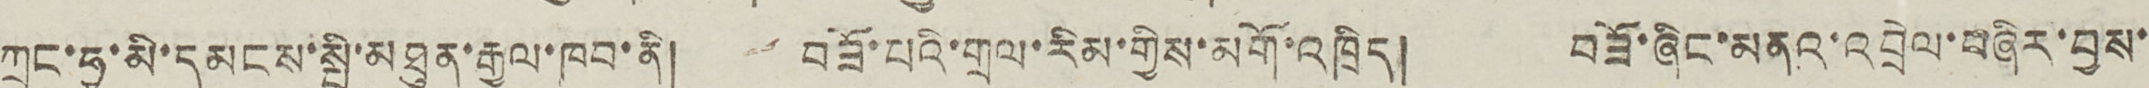ཀྲུང་ཧྭ་མི་དམངས་སྤྱི་མཐུན་རྒྱལ་ཁབ་ནི། བཟོ་པའི་གྲལ་རིམ་གྱིས་མགོ་འཁྲིད། བཟོ་ཞིང་མནའ་འབྲེལ་བཞིར་བྱས་
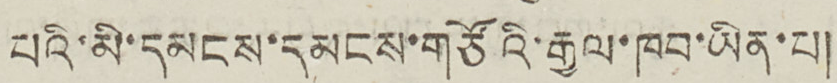པའི་མི་དམངས་དམངས་གཙོའི་རྒྱལ་ཁབ་ཡིན་པ།
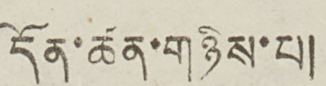དོན་ཚན་གཉིས་པ།
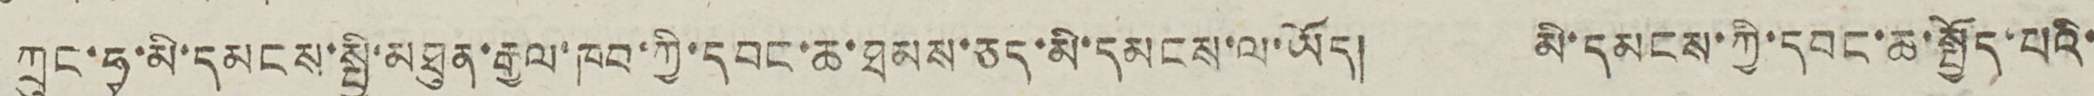ཀྲུང་ཧྭ་མི་དམངས་སྤྱི་མཐུན་རྒྱལ་ཁབ་ཀྱི་དབང་ཆ་ཐམས་ཅད་མི་དམངས་ལ་ཡོད། མི་དམངས་ཀྱི་དབང་ཆ་སྤྱོད་པའི་
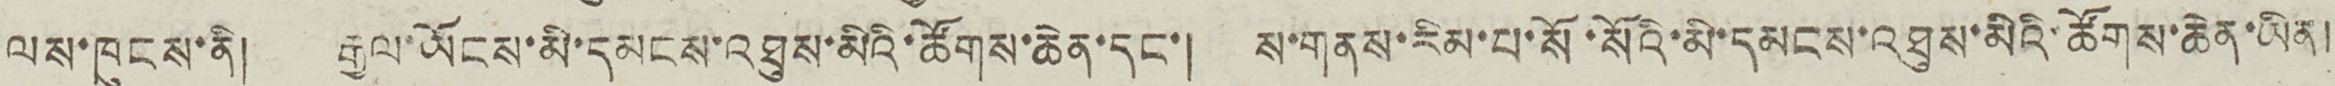ལས་ཁུངས་ནི། རྒྱལ་ཡོངས་མི་དམངས་འཐུས་མིའི་ཚོགས་ཆེན་དང་། ས་གནས་རིམ་པ་སོ་སོའི་མི་དམངས་འཐུས་མིའི་ཚོགས་ཆེན་ཡིན།
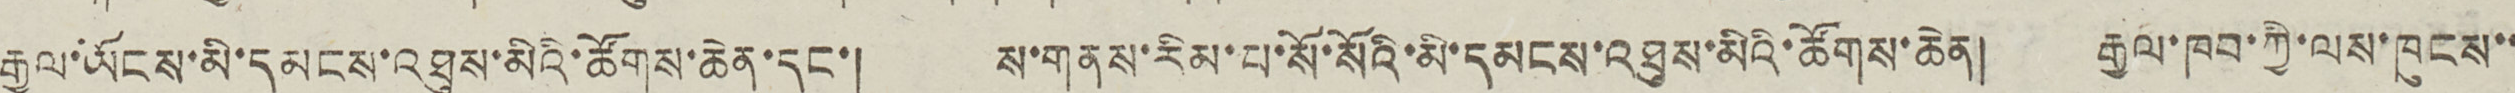རྒྱལ་ཡོངས་མི་དམངས་འཐུས་མིའི་ཚོགས་ཆེན་དང་། ས་གནས་རིམ་པ་སོ་སོའི་མི་དམངས་འཐུས་མིའི་ཚོགས་ཆེན། རྒྱལ་ཁབ་ཀྱི་ལས་ཁུངས་་
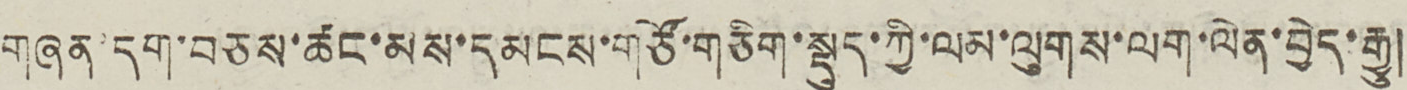གཞན་དག་བཅས་ཚང་མས་དམངས་གཙོ་གཅིག་སྡུད་ཀྱི་ལམ་ལུགས་ལག་ལེན་བྱེད་རྒྱུ།
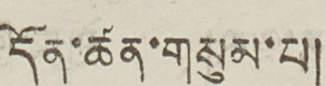དོན་ཚན་གསུམ་པ།
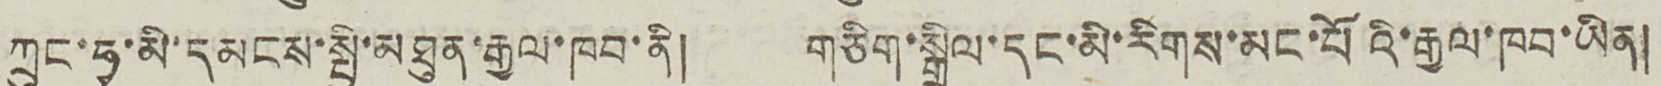ཀྲུང་ཧྭ་མི་དམངས་སྤྱི་མཐུན་རྒྱལ་ཁབ་ནི། གཅིག་སྒྲིལ་དང་མི་རིགས་མང་པོའི་རྒྱལ་ཁབ་ཡིན།
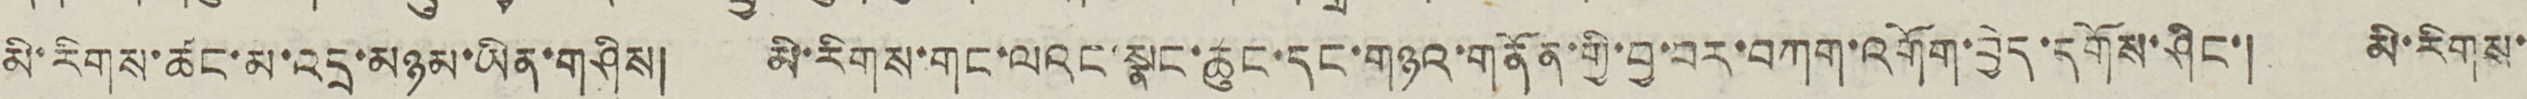མི་རིགས་ཚང་མ་འདྲ་མཉམ་ཡིན་གཤིས། མི་རིགས་གང་ལའང་སྣང་ཆུང་དང་གཉའ་གནོན་གྱི་བྱ་བར་བཀག་འགོག་བྱེད་དགོས་ཤིང་། མི་རིགས་
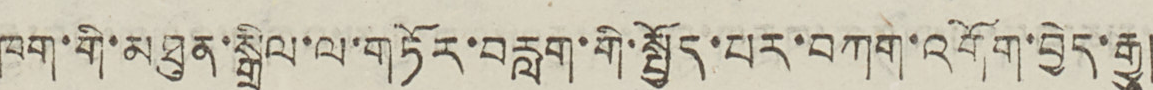ཁག་གི་མཐུན་སྒྲིལ་ལ་གཏོར་བརླག་གི་སྤྱོད་པར་བཀག་འགོག་བྱེད་རྒྱུ།
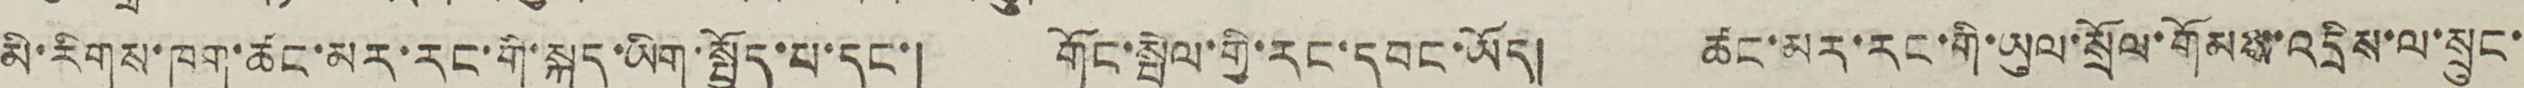མི་རིགས་ཁག་ཚང་མར་རང་གི་སྐད་ཡིག་སྤྱོད་པ་དང་། གོང་སྤེལ་གྱི་རང་དབང་ཡོད། ཚང་མར་རང་གི་ཡུལ་སྲོལ་གོམས་འདྲིས་ལ་སྲུང་
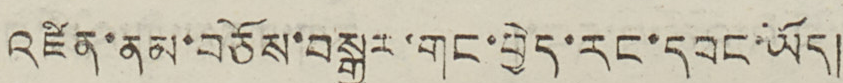འཛིན་ནམ་བཅོས་བསྒྱུར་གང་བྱེད་རང་དབང་ཡོད།
